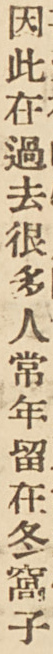因此在過去很多人常年留在冬窩子
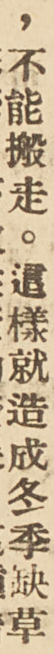，不能搬走。這樣就造成冬季缺草
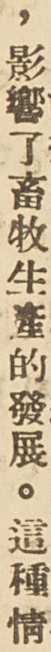，影響了畜牧生產的發展。這種情
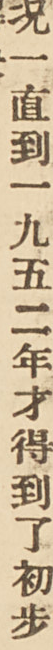况一直到一九五二年才得到了初步
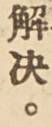解决。
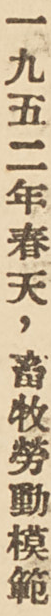一九五二年春天，畜牧勞動模範
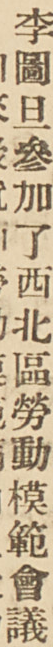李圖旦參加了西北區勞動模範會議
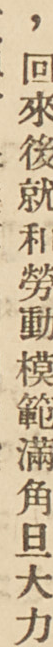，回來後就和勞動模範滿角旦大力
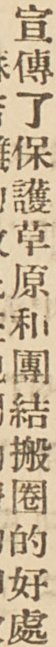宣傳了保護草原和團結搬圈的好處
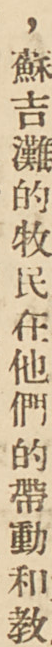，蘇吉灘的牧民在他們的帶動和教
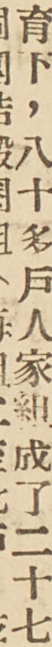育下，八十多戶人家組成了二十七
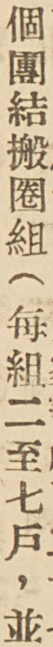個團結搬圈組（每組二至七戶，並
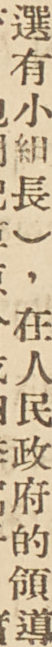選有小組長），在人民政府的領導
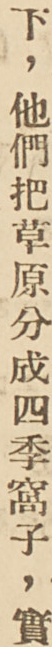下，他們把草原分成四季窩子，實
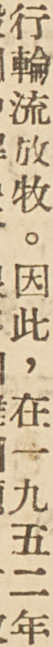行輪流放牧。因此，在一九五二年
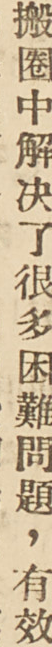搬圈中解决了很多困難問題，有效
